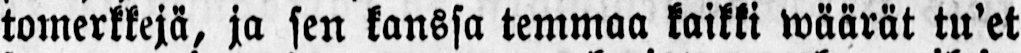tomerkkejä, ja sen kanssa temmaa kaikki wäärät tu'et
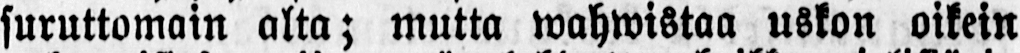suruttomain alta; mutta wahwistaa uskon oikein
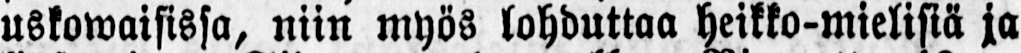uskowaisissa, niin myös lohduttaa heikko-mielisiä ja
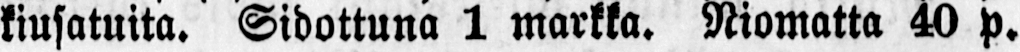kiusatuita. Sidottuna 1 markka. Niomatta 40 p.
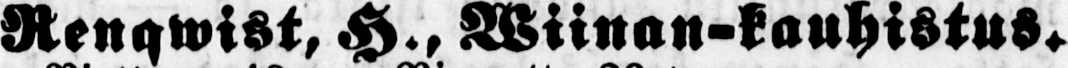Renqwist, H., Wiinan-kauhistus.
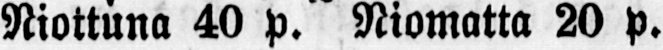Niottuna 40 p. Niomatta 20 p.
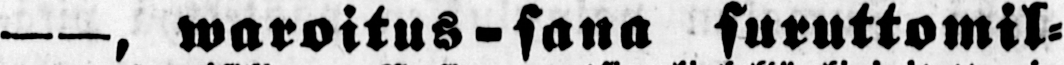—, waroitus-sana suruttomil-
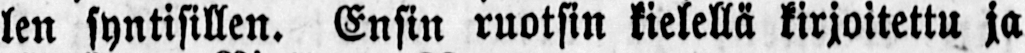len syntisillen. Ensin ruotsin kielellä kirjoitettu ja
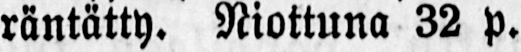räntätty. Niottuna 32 p.
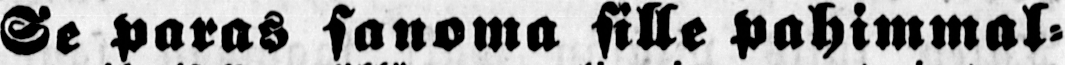Se paras sanoma sille pahimmal-
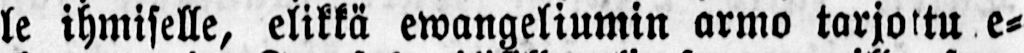le ihmiselle, elikkä ewangeliumin armo tarjottu e-
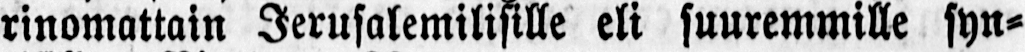rinomattain Jerusalemilisille eli suuremmille syn-
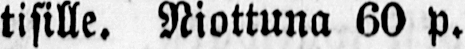tisille. Niottuna 60 p.
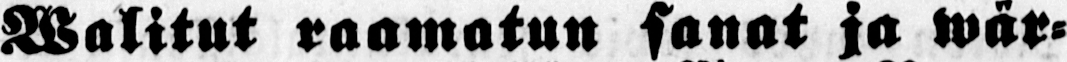Walitut raamatun sanat ja wär-
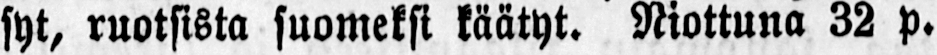syt, ruotsista suomeksi käätyt. Niottuna 32 p.
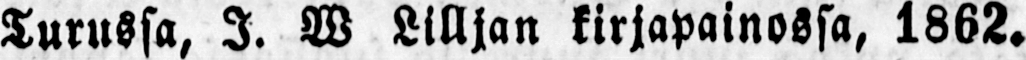Turussa, J. W Lilljan kirjapainossa, 1862.
